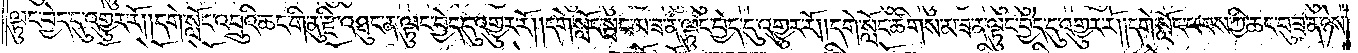ལྟུང་བྱེད་དུ་འགྱུར་རོ། །དགེ་སློང་འབྲུའི་ཆང་གི་ནུ་རྫི་འཐུང་ན་ལྟུང་བྱེད་དུ་འགྱུར་རོ། །དགེ་སློང་སྦང་མ་ཟ་ན་ལྟུང་བྱེད་དུ་འགྱུར་རོ། །དགེ་སློང་ཚིགས་མ་ཟ་ན་ལྟུང་བྱེད་དུ་འགྱུར་རོ། །དགེ་སློང་ཕབས་ཀྱི་ཆང་བུ་ཟ་ན་ཉེས་
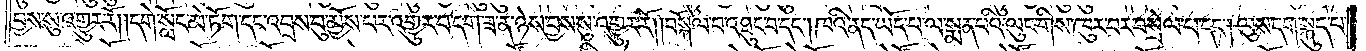བྱས་སུ་འགྱུར་རོ། །དགེ་སློང་མེ་ཏོག་དང་འབྲས་བུ་མྱོས་པར་འགྱུར་བ་དག་ཟ་ན་ཉེས་སུ་འགྱུར་རོ། །བསྐོལ་བ་འཐུང་བ་དང༌། ཁའི་ནད་ཡོད་པ་ལ་སྨན་པའི་ལུང་གིས་ཁུར་བར་བསྲེལ་བ་དང༌། ལུས་དག་སྐུད་པ་
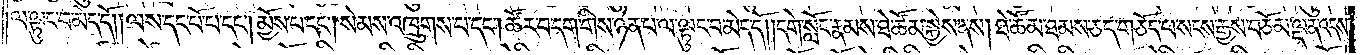ལ་ལྟུང་བ་མེད་དོ། །ལས་དང་པོ་པ་དང༌། མྱོས་པ་དང༌། སེམས་འཁྲུགས་པ་དང༌། ཚོར་བ་དག་གིས་ཉེན་པ་ལ་ལྟུང་བ་མེད་དོ། །དགེ་སློང་རྣམས་ཐེ་ཚོམ་སྐྱེས་ནས། ཐེ་ཚོམ་ཐམས་ཅད་གཅོད་པ་སངས་རྒྱས་བཅོམ་ལྡན་འདས་
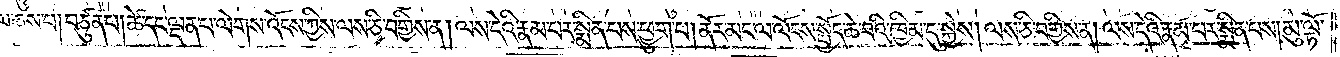ལ་ཞུས་པ། བཙུན་པ། ཚེ་དང་ལྡན་པ་ལེགས་འོངས་ཀྱིས་ལས་ཅི་བགྱིས་ན། ལས་དེའི་རྣམ་པར་སྨིན་པས་ཕྱུག་པ། ནོར་མང་ལ་ལོངས་སྤྱོད་ཆེ་བའི་ཁྱིམ་དུ་སྐྱེས། ལས་ཅི་བགྱིས་ན། ལས་དེའི་རྣམ་པར་སྨིན་པས། མུ་ལྟོ་
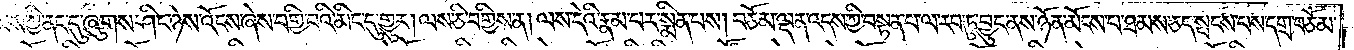བ་རྣམས་ཀྱི་ནང་དུ་ཞུགས་ཤིང་ཉེས་འོངས་ཞེས་བགྱི་བའི་མིང་དུ་གྱུར། ལས་ཅི་བགྱིས་ན། ལས་དེའི་རྣམ་པར་སྨིན་པས། བཅོམ་ལྡན་འདས་ཀྱི་བསྟན་པ་ལ་རབ་ཏུ་བྱུང་ནས་ཉོན་མོངས་པ་ཐམས་ཅད་སྤངས་པས་དགྲ་བཅོམ་
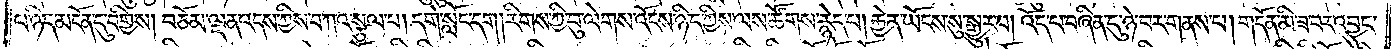པ་ཉིད་མངོན་དུ་བགྱིས། བཅོམ་ལྡན་འདས་ཀྱིས་བཀའ་སྩལ་པ། དགེ་སློང་དག །རིགས་ཀྱི་བུ་ལེགས་འོངས་ཉིད་ཀྱིས་ལས་ཚོགས་རྙེད་པ། རྐྱེན་ཡོངས་སུ་སྒྱུར་བ། འོད་པ་བཞིན་དུ་ཉེ་བར་གནས་པ། གདོན་མི་ཟ་བར་འབྱུང་
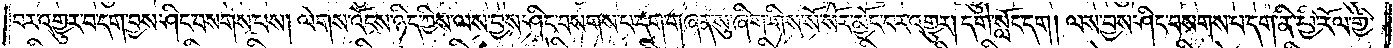བར་འགྱུར་བ་དག་བྱས་ཤིང་བསགས་པས། ལེགས་འོངས་ཉིད་ཀྱིས་ལས་བྱས་ཤིང་བསགས་པ་དག་གཞན་སུ་ཞིག་གིས་སོ་སོར་མྱོང་བར་འགྱུར། དགེ་སློང་དག །ལས་བྱས་ཤིང་བསགས་པ་དག་ནི་ཕྱི་རོལ་གྱི་
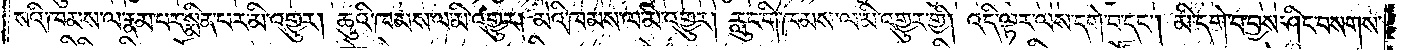སའི་ཁམས་ལ་རྣམ་པར་སྨིན་པར་མི་འགྱུར། ཆུའི་ཁམས་ལ་མི་འགྱུར། མེའི་ཁམས་ལ་མི་འགྱུར། རླུང་གི་ཁམས་ལ་མི་འགྱུར་གྱི། འདི་ལྟར་ལས་དགེ་བ་དང༌། མི་དགེ་བ་བྱས་ཤིང་བསགས་
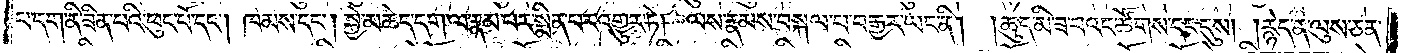པ་དག་ནི་ཟིན་པའི་ཕུང་པོ་དང༌། ཁམས་དང༌། སྐྱེ་མཆེད་དག་ལ་རྣམ་པར་སྨིན་པར་འགྱུར་ཏེ། ལས་རྣམས་བསྐལ་པ་བརྒྱར་ཡང་ནི། །ཆུད་མི་ཟ་བའང་ཚོགས་དང་དུས། །རྙེད་ན་ལུས་ཅན་
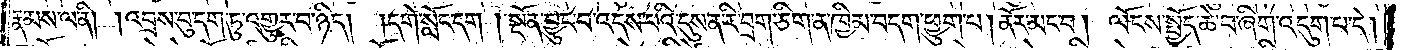རྣམས་ལ་ནི། །འབྲས་བུ་དག་ཏུ་འགྱུར་བ་ཉིད། །དགེ་སློང་དག །སྔོན་བྱུང་བ་འདས་པའི་དུས་ན་རི་བྲག་ཅིག་ན་ཁྱིམ་བདག་ཕྱུག་པ། ནོར་མང་བ། ལོངས་སྤྱོད་ཆེ་བ་ཞིག་འདུག་པ་དེ།
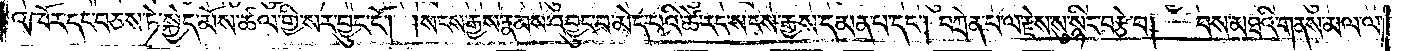འཁོར་དང་བཅས་ཏེ་སྐྱེད་མོས་ཚལ་གྱི་སར་བྱུང་ངོ༌། །སངས་རྒྱས་རྣམས་འབྱུང་བ་མེད་པའི་ཚེ་རང་སངས་རྒྱས་དམན་པ་དང༌། བཀྲེན་པ་ལ་རྗེས་སུ་སྙིང་བརྩེ་བ། བས་མཐའི་གནས་མལ་ལ་
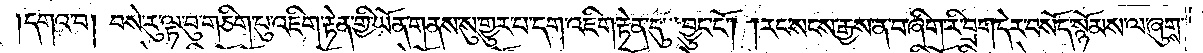།དགའ་བ། བསེ་རུ་ལྟ་བུ་གཅིག་པུ་འཇིག་རྟེན་གྱི་ཡོན་གནས་སུ་གྱུར་པ་དག་འཇིག་རྟེན་དུ་བྱུང་ངོ༌། །རང་སངས་རྒྱས་ན་བ་ཞིག་རི་བྲག་དེར་བསོད་སྙོམས་ལ་ཞུགས་
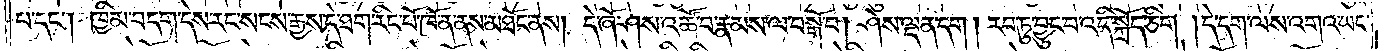པ་དང༌། ཁྱིམ་བདག་དེས་རང་སངས་རྒྱས་དེ་ཐག་རིང་པོ་ཁོ་ན་ནས་མཐོང་ནས། དེ་ཞོ་ཤས་འཚོ་བ་རྣམས་ལ་བསྒོ་བ། ཤེས་ལྡན་དག །རབ་ཏུ་བྱུང་བ་འདི་སྐྲོད་ཅིག །དེ་དག་ལས་འགའ་ཡང་
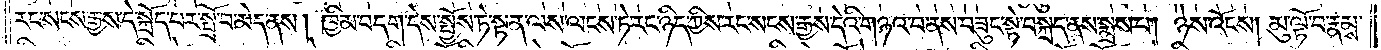རང་སངས་རྒྱས་དེ་སྐྲོད་པར་སྤྲོ་བ་མེད་ནས། ཁྱིམ་བདག་དེས་སྤྱོས་ཏེ་སྟན་ལས་ལངས་ཏེ་རང་ཉིད་ཀྱིས་རང་སངས་རྒྱས་དེའི་གཉའ་བ་ནས་བཟུང་སྟེ་བསྐྲད་ནས་སྨྲས་པ། ཉེས་འོངས། མུ་ལྟོ་བ་རྣམས་
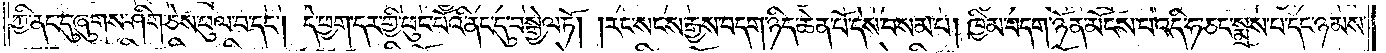ཀྱི་ནང་དུ་ཞུགས་ཤིག་ཅེས་ཕུལ་བ་དང༌། དེ་ཕྱག་དར་གྱི་ཕུང་པོའི་ནང་དུ་བསྒྱེལ་ཏོ། །རང་སངས་རྒྱས་བདག་ཉིད་ཆེན་པོ་དེས་བསམ་པ། ཁྱིམ་བདག་ཉོན་མོངས་པ་འདི་ཧ་ཅང་སྨྲས་པ་དང་ཉམས་
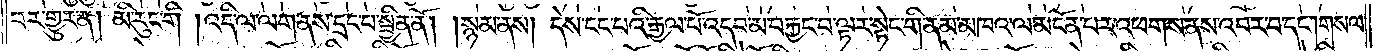བར་གྱུར་ན། མི་རུང་གི །འདི་ལ་ལག་ནས་དྲང་པ་སྦྱིན་ནོ། །སྙམ་ནས། དེས་ངང་པའི་རྒྱལ་པོ་འདབ་མ་བརྐྱང་བ་ལྟར་སྟེང་གི་ནམ་མཁའ་ལ་མངོན་པར་འཕགས་ནས་འབར་བ་དང༌། གསལ་
